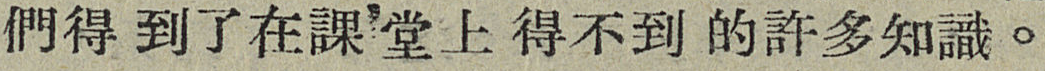們得到了在課堂上得不到的許多知識。
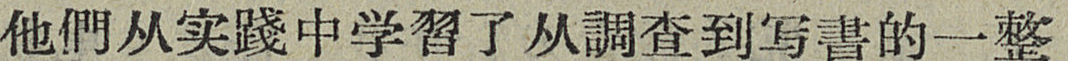他們从实踐中学習了从調查到写書的一整
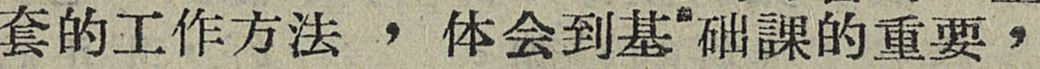套的工作方法，体会到基础課的重要，
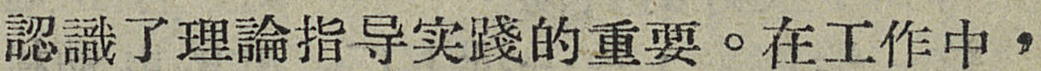認識了理論指导实踐的重要。在工作中，
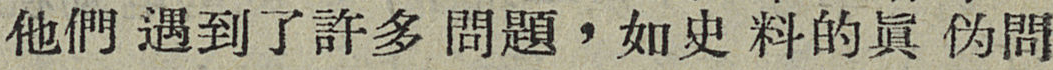他們遇到了許多問題，如史料的眞伪問
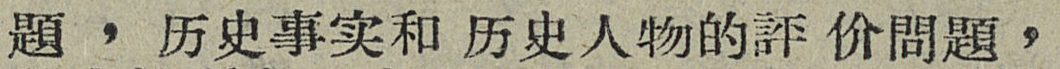題，历史事实和历史任务的評价問題，
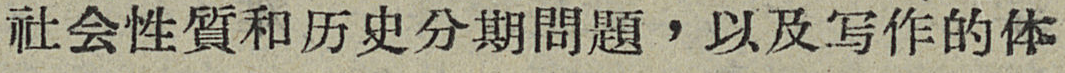社会性質和历史分期問題，以及写作的体
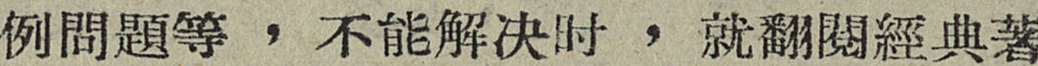例問題等，不能解决时，就翻閱經典著
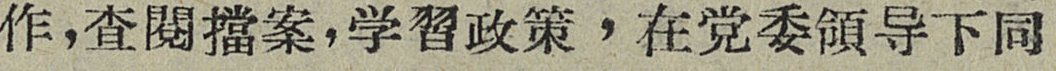作，查閱擋案，学習政策，在党委領导下同
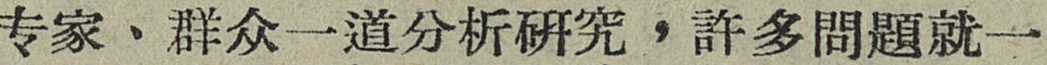专家、群众一道分析研究，許多問題就一
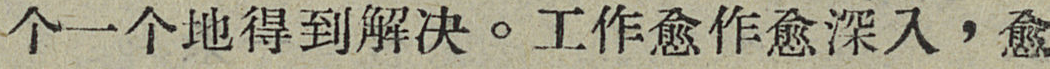个一个地得到解决。工作愈作愈深入，愈
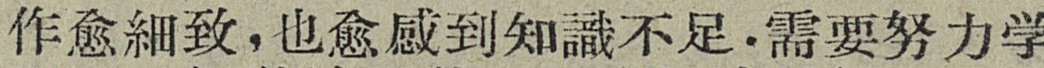作愈細致，也愈感到知識不足，需要努力学
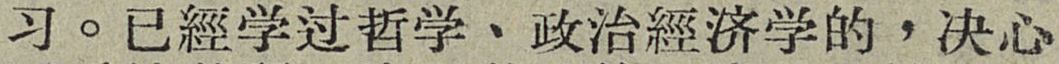习。已經学过哲学、政治經济学的，决心
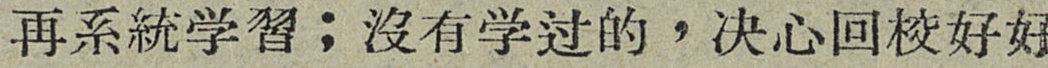再系統学習；沒有学过的，决心回校好好
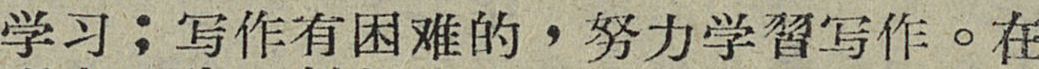学习；写作有困难的，努力学習写作。在
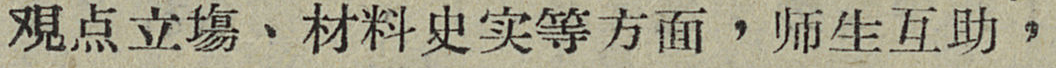覌点立塲、材料史实等方面，师生互助，
